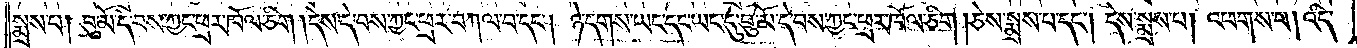སྨྲས་པ། བུ་མོ་དེ་བས་ཀྱང་ཕྲར་ཁོལ་ཅིག །དེས་དེ་བས་ཀྱང་ཕྲར་བཀལ་བ་དང༌། ཉེ་དགས་ཡང་དང་ཡང་དུ་བུ་མོ་དེ་བས་ཀྱང་ཕྲར་ཁོལ་ཅིག །ཅེས་སྨྲས་པ་དང༌། དེས་སྨྲས་པ། འཕགས་པ། འདི་
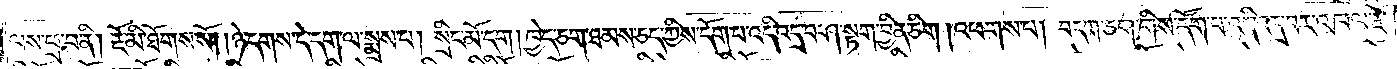ལས་ཕྲ་བ་ནི། རྔོ་མི་ཐོགས་སོ། །ཉེ་དགས་དེ་དག་ལ་སྨྲས་པ། སྲིང་མོ་དག། ཁྱེད་ཅག་ཐམས་ཅད་ཀྱིས་དོག་པ་འདི་འདྲ་བ་ཤ་སྟག་བྱིན་ཅིག །འཕགས་པ། བདག་ཅག་གིས་དོག་པ་འདི་འདྲ་བར་འཁལ་རྔོ་
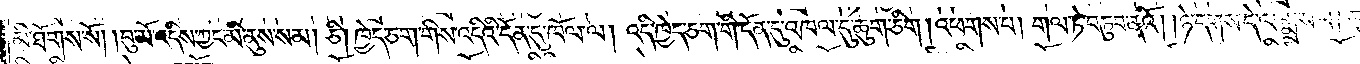མི་ཐོགས་སོ། །བུ་མོ་འདིས་ཀྱང་མི་ནུས་སམ། ཅི། ཁྱེད་ཅག་གིས་འདིའི་དོན་དུ་ཁོལ་ལ། འདི་ཁྱེད་ཅག་གི་དོན་དུ་འཁལ་དུ་ཆུག་ཅིག །འཕགས་པ། གལ་ཏེ་བཏུབ་ནའོ། །ཉེ་དགས་དེ་ལ་སྨྲས་པ། བུ་མོ།
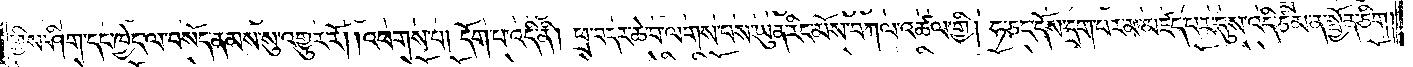གྱིས་ཤིག་དང་ཁྱེད་ལ་བསོད་ནམས་སུ་འགྱུར་རོ། །འཕགས་པ། དོག་པ་འདི་ནི། ཕྲ་བདར་ཆེ་བ་ལགས་པས་ཡུན་རིང་མོས་བཀལ་འཚལ་གྱི། ཧ་ཅང་དོས་དྲག་པར་མ་མཛད་པར་དུས་འདི་ཙམ་ན་སྤྱོན་ཅིག།
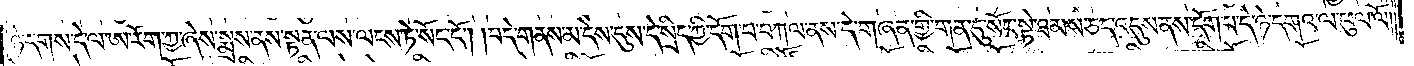ཉེ་དགས་དེ་ལ་ཨ་རོག་ཀྱ་ཞེས་སྨྲས་ནས་སྟན་ལས་ལངས་ཏེ་སོང་ངོ༌། །བདེ་གནས་མ་དེས་དུས་དེ་སྲིད་ཀྱི་དོག་པ་བཀལ་ནས་དེ་གཞན་གྱི་གན་དུ་སོང་སྟེ་ཐམས་ཅད་འདུས་ནས་དོག་པ་དེ་ཉེ་དགའ་ལ་ཕུལ་ལོ༎
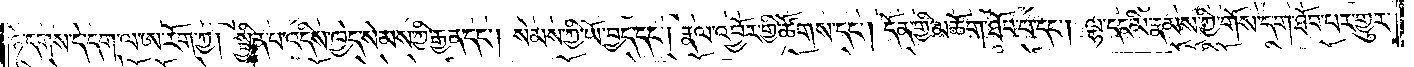ཉེ་དགས་དེ་དག་ལ་ཨ་རོག་ཀྱ། སྦྱིན་པ་འདིས་ཁྱེད་སེམས་ཀྱི་རྒྱན་དང༌། སེམས་ཀྱི་ཡོ་བྱད་དང༌། རྣལ་འབྱོར་གྱི་ཚོགས་དང༌། དོན་གྱི་མཆོག་ཐོབ་པ་དང༌། ལྷ་དང་མི་རྣམས་ཀྱི་གོས་དག་ཐོབ་པར་གྱུར་
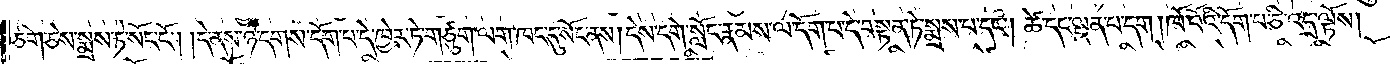ཅིག་ཅེས་སྨྲས་ཏེ་སོང་ངོ༌། །དེ་ནས་ཉེ་དགས་དོག་པ་དེ་ཁྱེར་ཏེ་གཙུག་ལག་ཁང་དུ་སོང་ནས། དེས་དགེ་སློང་རྣམས་ལ་དོག་པ་དེ་བསྟན་ཏེ་སྨྲས་པ་དང༌། ཚེ་དང་ལྡན་པ་དག །ཁོ་བོའི་དོག་པ་ཅི་འདྲ་ལྟོས།
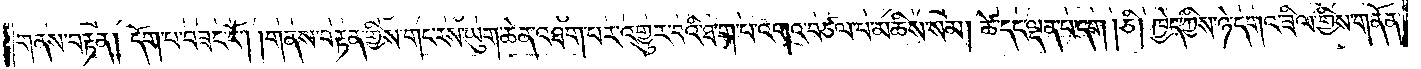གནས་བརྟན། དོག་པ་བཟང་ངོ༌། །གནས་བརྟན་གྱིས་གང་རས་ཡུག་ཆེན་འཐག་པར་འགྱུར་བའི་ཐག་པ་འགའ་བཙལ་བ་མཆིས་སམ། ཚེ་དང་ལྡན་པ་དག །ཅི། ཁྱེད་ཀྱིས་ཉེ་དགའ་ཟིལ་གྱིས་གནོན་
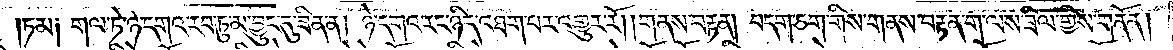ཏམ། གལ་ཏེ་ཉེ་དགའ་རབ་ཏུ་མ་བྱུང་དུ་ཟིན་ན། ཉེ་དགའ་རང་ཉིད་འཐག་པར་འགྱུར་རོ། །གནས་བརྟན། བདག་ཅག་གིས་གནས་བརྟན་ག་ལས་ཟིལ་གྱིས་གནོན།
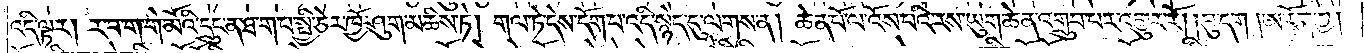འདི་ལྟར། ར་བ་ག་གེ་མོའི་དྲུང་ན་ཐ་ག་པ་སྤྱི་ཅེར་ཁྱོ་ཤུག་མཆིས་ཏེ། གལ་ཏེ་དེས་དོག་པ་འདི་སྙེད་དུ་ལགས་ན། ཆེན་པོ་ལ་འོས་པའི་རས་ཡུག་ཆེན་འགྲུབ་པར་འགྱུར་རོ། །བུ་དག །ཨ་རོག་ཀྱ།
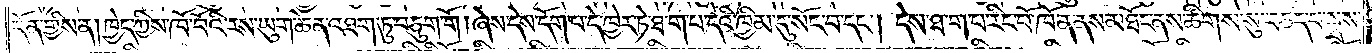དོན་གྱིས་ན། ཁྱེད་ཀྱིས་ཁོ་བོའི་རས་ཡུག་ཆེན་འཐག་ཏུ་བཅུག་གོ །ཞེས་དེས་དོག་པ་དེ་ཁྱེར་ཏེ་ཐ་ག་པ་དེའི་ཁྱིམ་དུ་སོང་བ་དང༌། དེས་ཐ་ག་པ་རིང་པོ་ཁོ་ན་ནས་མཐོང་ནས་ཚིགས་སུ་བཅད་པ་སྨྲས་
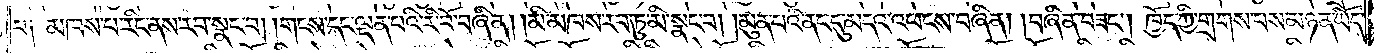པ༑ མཁས་པ་རིང་ནས་རབ་སྣང་བ། །གངས་དང་ལྡན་པའི་རི་བོ་བཞིན། །མི་མཁས་རབ་ཏུ་མི་སྣང་བ། །མུན་པའི་ནང་དུ་མདའ་འཕངས་བཞིན། །བཞིན་བཟང༌། ཁྱོད་ཀྱི་གྲགས་པས་མཉན་ཡོད་
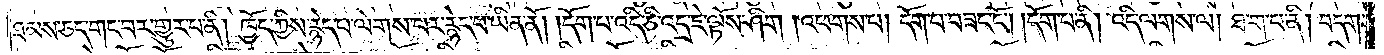ཐམས་ཅད་གང་བར་གྱུར་པ་ནི། ཁྱོད་ཀྱིས་རྙེད་པ་ལེགས་པར་རྙེད་པ་ཡིན་ནོ། །དོག་པ་འདི་ཅི་འདྲ་ཇེ་ལྟོས་ཤིག །འཕགས་པ། དོག་པ་བཟང་ངོ༌། །དོག་པ་ནི། འདི་ལགས་ལ། ཐ་ག་པ་ནི། བདག་
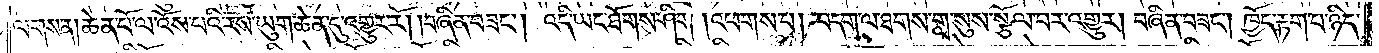ལགས་ན། ཆེན་པོ་ལ་འོས་པའི་རས་ཡུག་ཆེན་དུ་འགྱུར་རོ། །བཞིན་བཟང༌། འདི་ཡང་ཐོགས་ཤིག །འཕགས་པ། བདག་ལ་ཐགས་གླ་སུས་སྩོལ་བར་འགྱུར། བཞིན་བཟང༌། ཁྱོད་རྟག་པ་ཉིད་
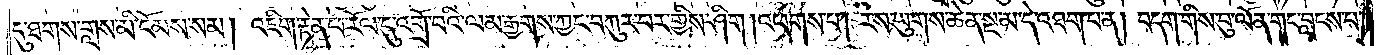དུ་ཐགས་གླས་མི་ངོམས་སམ། འཇིག་རྟེན་ཕ་རོལ་དུ་འགྲོ་བའི་ལམ་རྒྱགས་ཀྱང་བཀུར་བར་གྱིས་ཤིག །འཕགས་པ། རས་ཡུགས་ཆེན་སྔ་མ་དེ་འཐག་པ་ན། བདག་གིས་བུ་ལོན་གང་བླངས་པ་
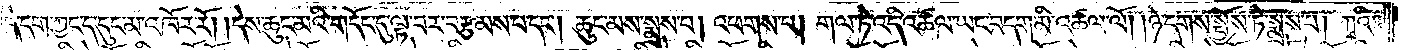དེ་དག་ཀྱང་ད་དུང་མ་འཁོར་རོ། །དེས་ཆུང་མའི་གདོང་དུ་ལྟ་བར་བརྩམས་པ་དང༌། ཆུང་མས་སྨྲས་པ། འཕགས་པ། གལ་ཏེ་འདི་འཚལ་ཡང་བདག་མི་འཚལ་ལོ། །ཉེ་དགས་སྤྱོས་ཏེ་སྨྲས་པ། ཀྭའི་
